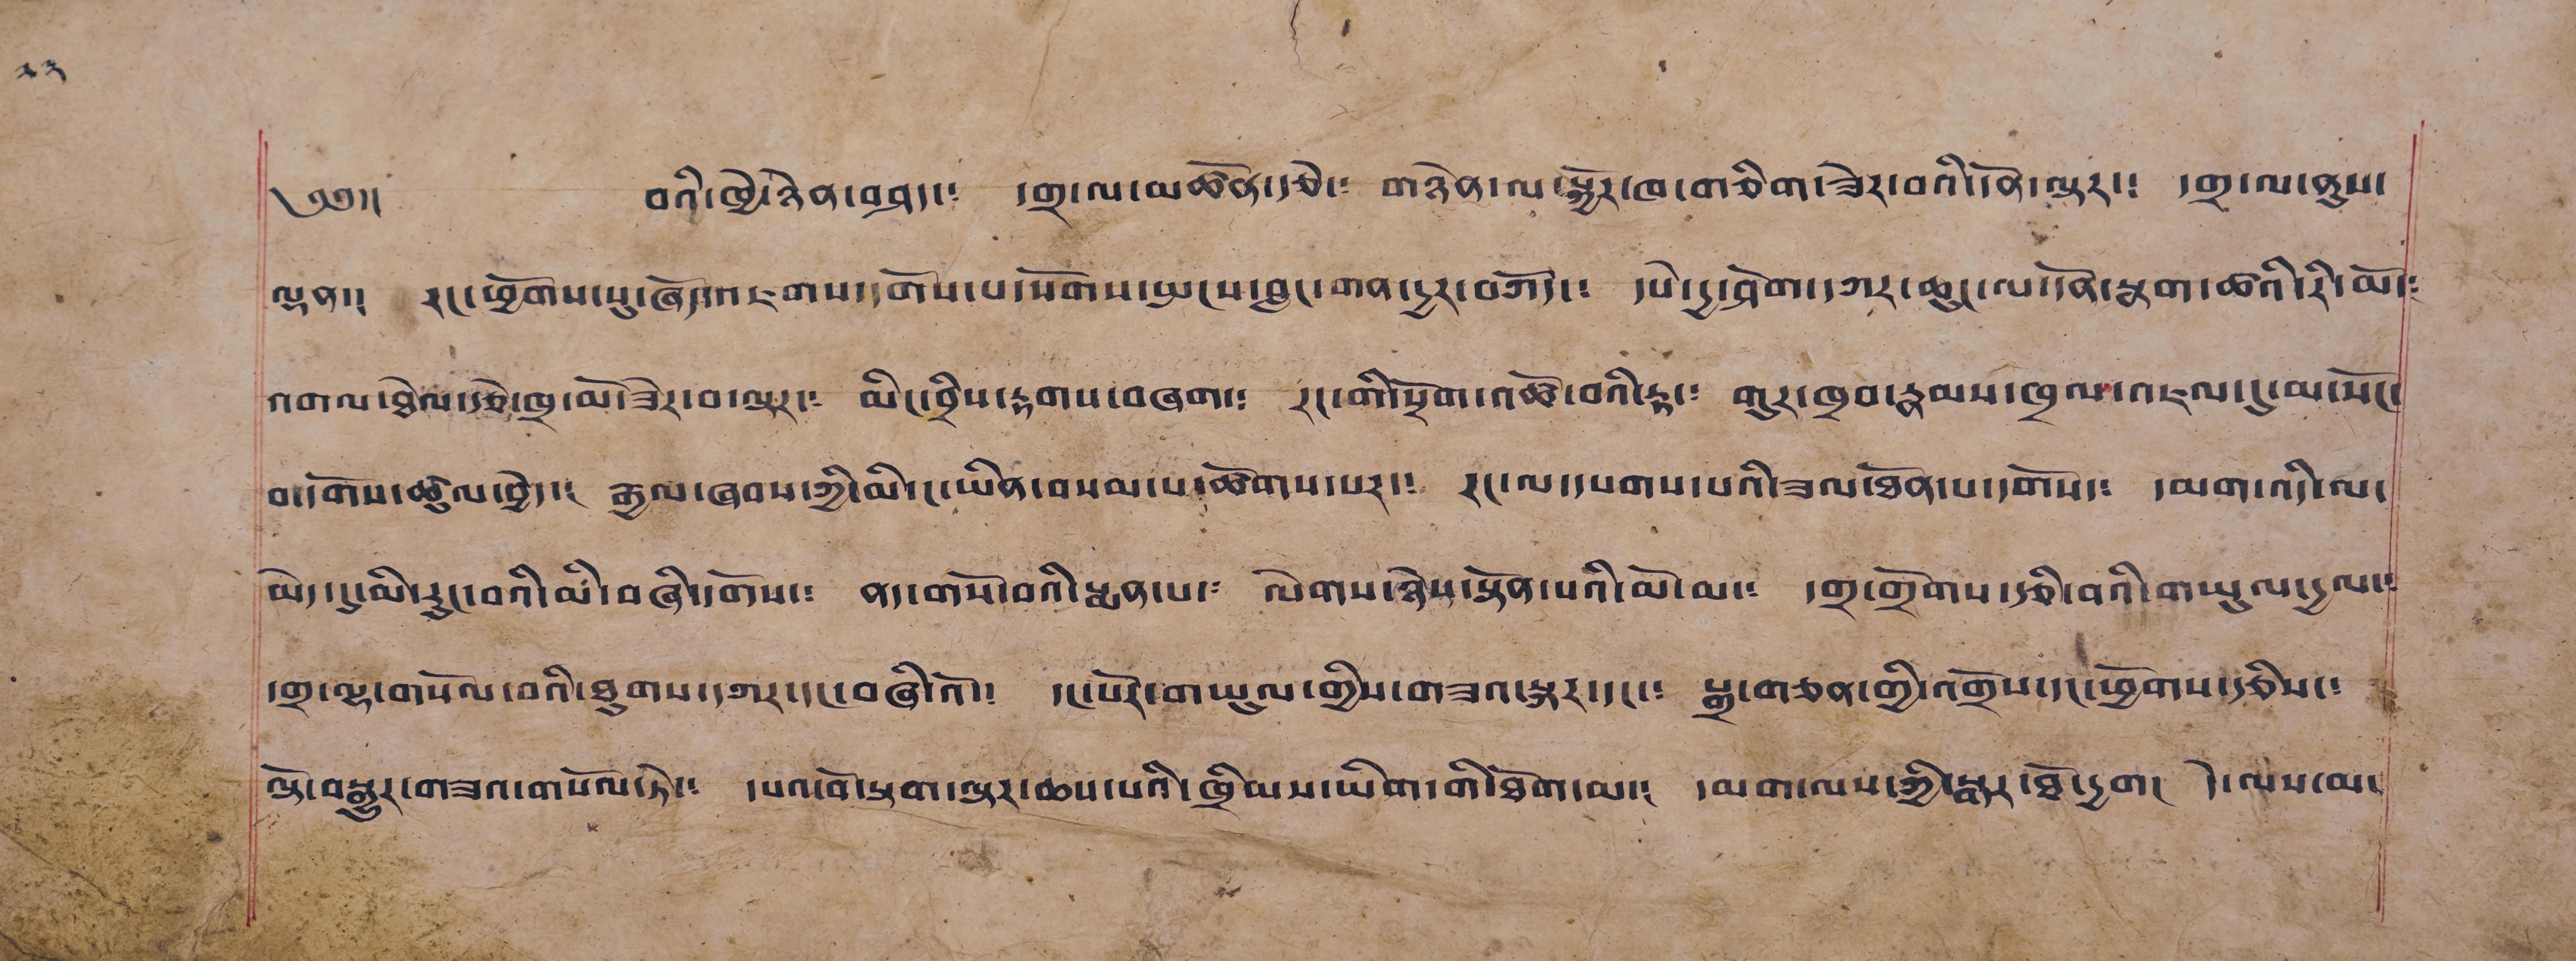༢༣
༄༅།། བའི་ཁྱེ་ཉེན་བཤད་༴ དགྲ་ལ་མཚོན་རྩེ་༴ གཉེན་ལ་སྐྱོར་ཁ་གཅིག་ཟེར་བའི་དོན་ལྟར་༴ དགྲ་ལ་ནུས་
ལྡན་༴ རང་ཕྱོགས་སུ་ཞོད་འཇགས་དགོས་པ་སོགས་སྤངས་བླང་གན་དྱར་བཀོད་༴ དཔེ་དྱ་ཤོག་དཀར་ཆུང་ལ་དོན་སྣག་ཚའི་རི་མོ་༴
འགལ་ཐེལ་རྩེ་ཁྲ་མོ་ཟེར་བ་ལྟར་༴ མིང་བྲིས་རྟགས་བཞག་༴ རང་གི་སྲོག་འཚོ་བའི་རྟ་༴ གུར་ཁྲབ་རྣམས་ཁྲལ་འཇལ་དུ་མ་ཡོང་
བ་དགོས་ཚུལ་བྱེད་༴ རྒྱལ་ཞབས་ཀྱི་མི་ང་ཡིན་བསམ་པ་ཚོགས་པར་༴ རང་ལ་དཔགས་པའི་ཟལ་ཐོན་པ་དགོས་༴ དམག་འདི་ལ་
མེད་དུ་མི་རུང་བའི་མི་བཞི་དགོས་༴ ནད་གསོ་བའི་སྨན་པ་༴ ལེགས་ཉེས་སྟོན་པའི་མོ་མ་༴ དགྲ་གྲོགས་རྩི་བའི་གཡུལ་དྱལ་༴
དགྲ་ལྷ་གསོལ་བའི་ཐུགས་དཀར་དང་བཞིའོ་། དང་པོར་གཡུལ་གྱིས་གཟའ་སྐར་དང་༴ སྒྲ་གཅན་གྱི་འགྲོས་དང་ཕྱོགས་རྩིས་༴
ལྟེ་བསྒྱུར་གཟའ་གསོལ་ཏེ་༴ དཔའ་བོ་སྟག་ལྟར་ཆས་པའི་ཁྲིམས་ཡིག་གི་ཐོག་མ་༴ དམག་ལས་ཀྱི་སྒར་ཐོ་དྱག། དེ་ལས་མ་
